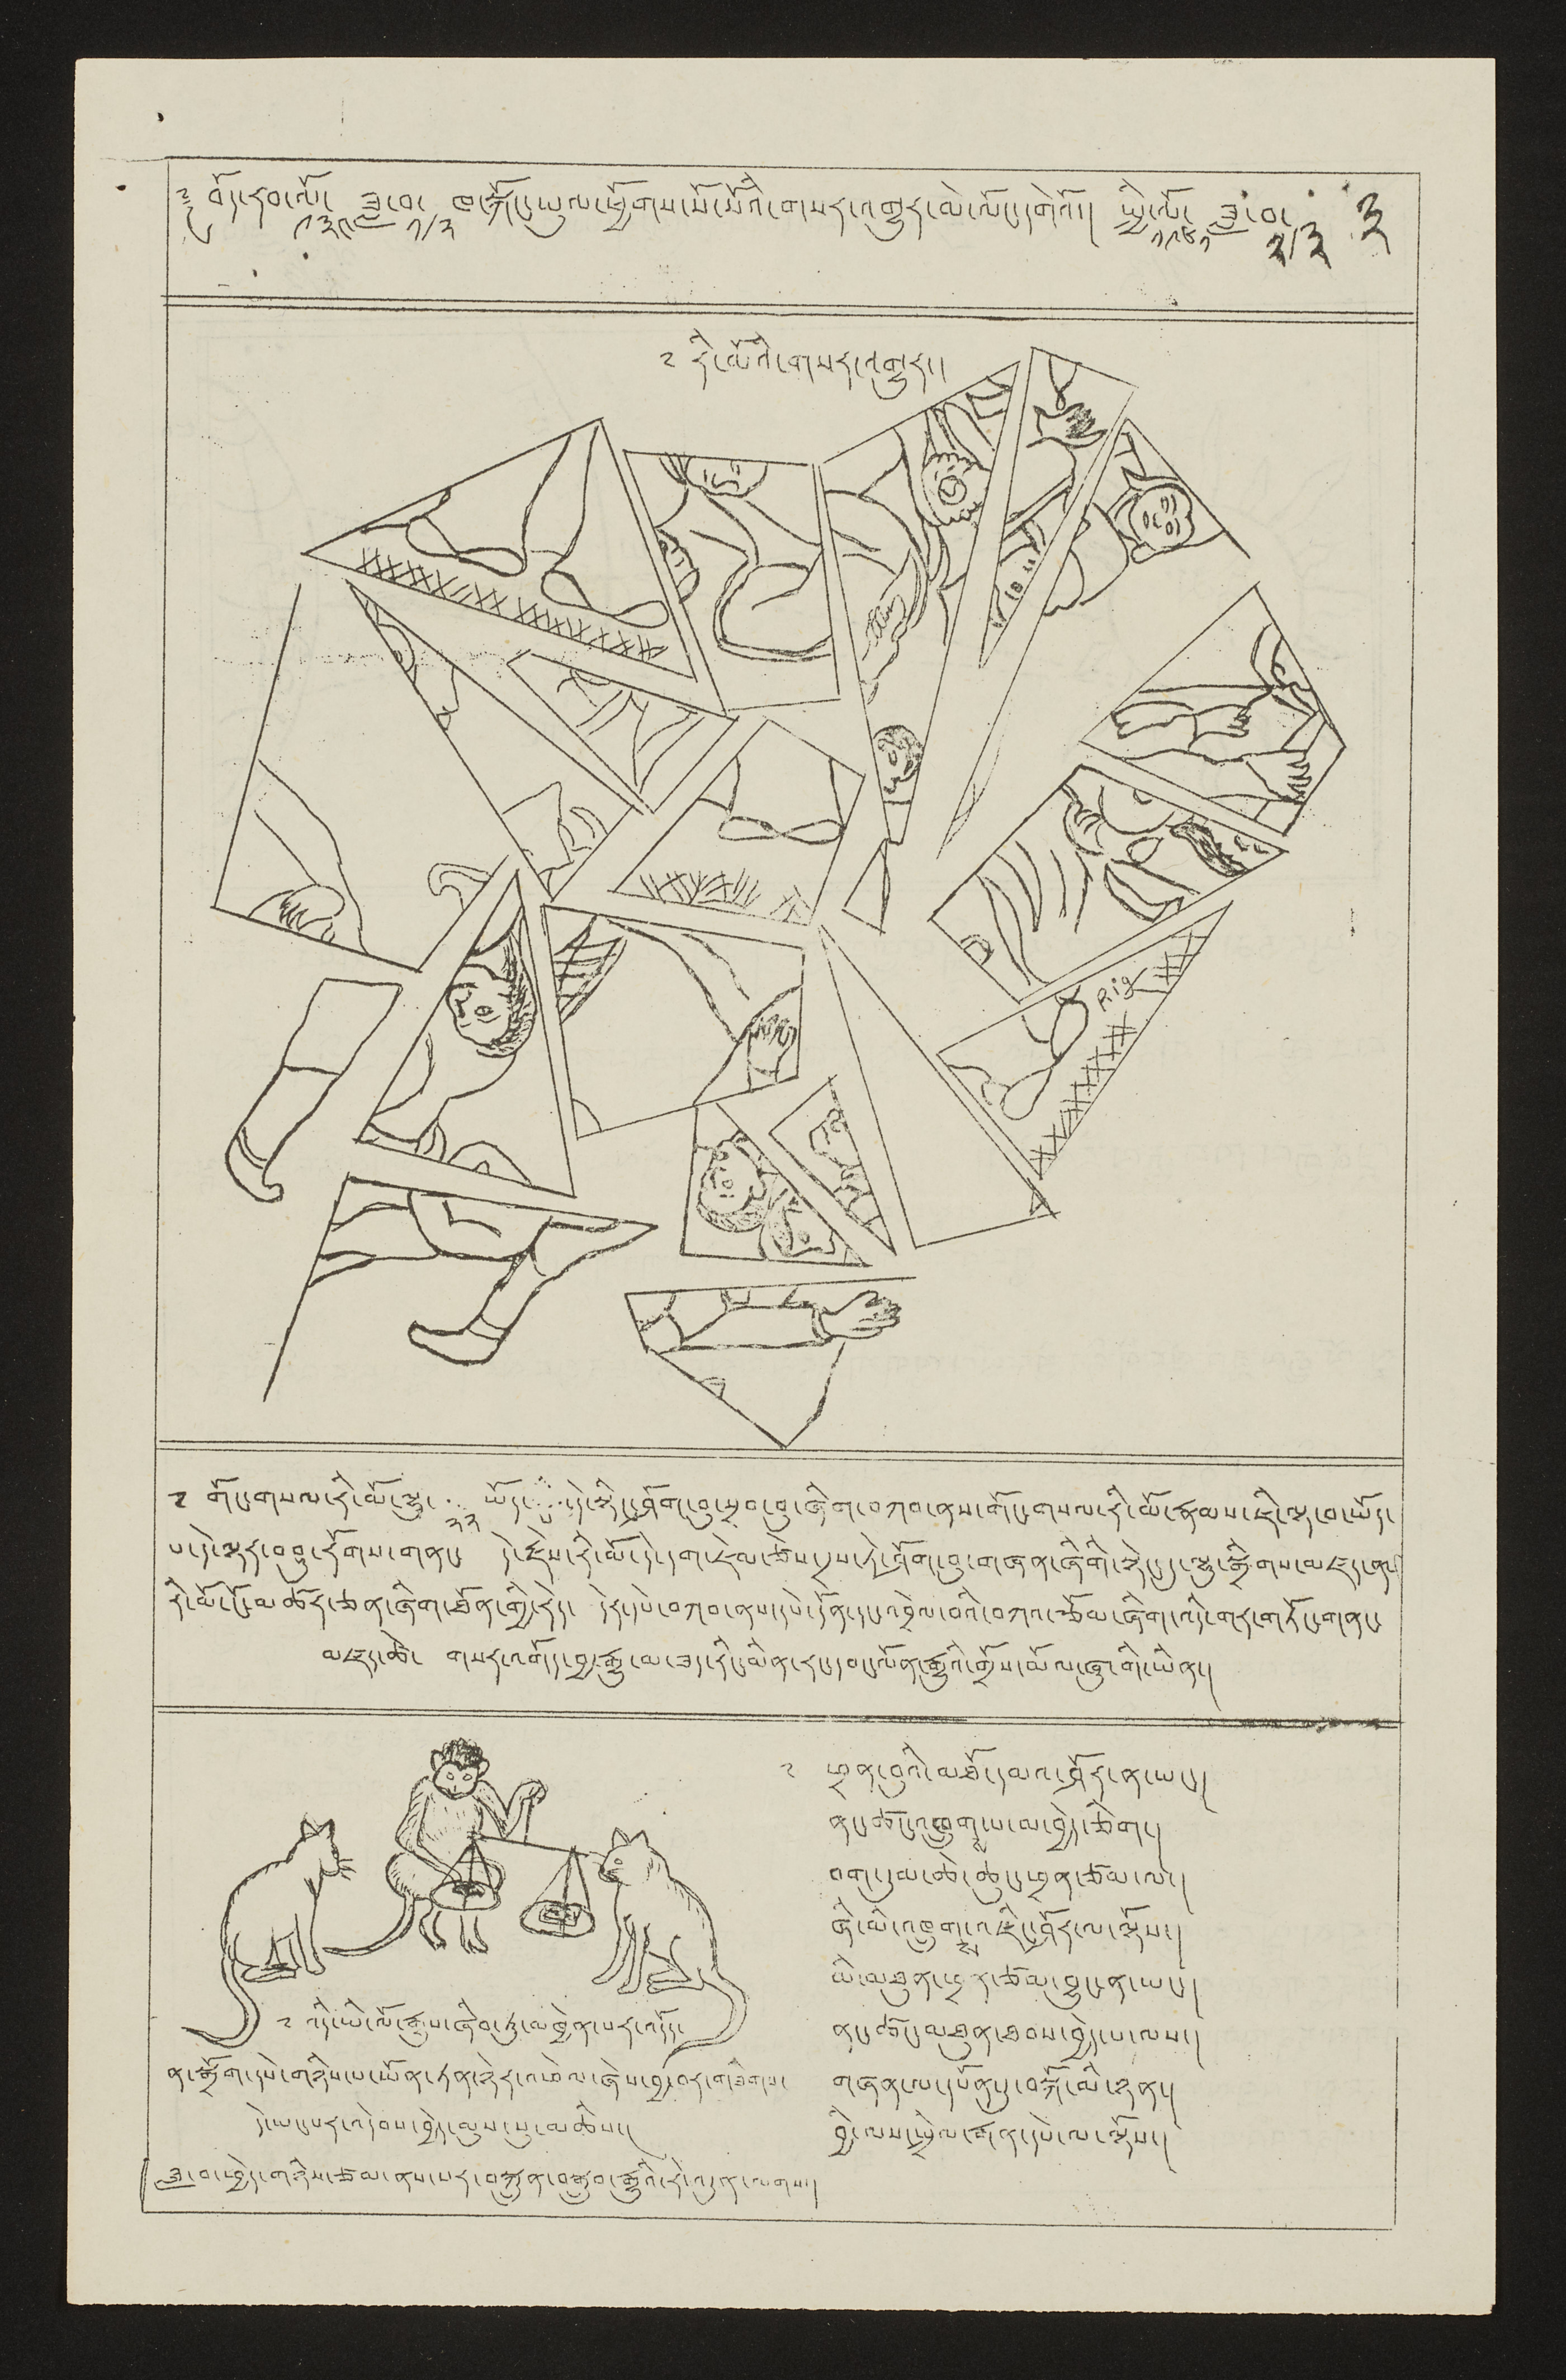༈ བོད་རབ་ལོ་
༩༣༤
ཟླ་བ་
༡/༢
ཁ་སྐོང་ཡུལ་ཕྱོགས་སོ་སོའི་གསར་འགྱུར་མེ་ལོང་གི་དགེའོ། སྤྱི་ལོ་
༡༩༦༡
ཟླ་བ་
༢/༣
༣
༈ རི་མོའི་གསར་འགྱུར།
༈ གོང་གསལ་རི་མོའི་ལྷུ་
༢༢
ཡོད་པ་དེ་སྙིང་ཤོག་བུ་སྲབ་བུ་ཞིག་བཀབ་ནས་གོང་གསལ་རི་མོ་རྣམས་ཇི་ལྟར་བ་ཡོད་
པ་དེ་ལྟར་བཤུ་རོགས་གནང་ དེ་རྗེས་རི་མོ་དེ་དག་ཇེལ་ཙེས་དྲས་ཏེ་ཤོག་བུ་གཞན་ཞིགི་སྟེང་དུ་ལྷུན་སྒྲིགས་མཛད་ན་
རི་མོ་ངོ་མཚར་ཅན་ཞིག་ཐོན་གྱི་རེད་ དེར་དཔེ་བཀབ་ནས་དཔེ་དོན་དང་འབྲེལ་བའི་བཀའ་རྩོམ་ཞིག་འདི་གར་གཏོང་གནང་
མཛད་ཚེ་ གསར་འགོད་བྱ་རྒྱུ་མ་ཟད་རིང་མིན་རང་དབང་ལོན་རྒྱུའི་གྲོས་མོལ་ཞུ་གི་ཡིན།
༈ འདི་ཡི་ལོ་རྒྱུས་ཞིབ་ཏུ་མཁྱེན་པར་འདོད་
ན་སྒྲོག་དཔེ་གཉིས་པ་ཡོན་ཏན་ཉེར་འཕེལ་ཞེས་བྱ་བར་གཟིགས་
དེ་ཡང་པར་འདེབས་བྱེད་མུས་སུ་མཆིས།
ཟླ་བ་ཕྱེད་གཉིས་ཙམ་ནས་པར་བསྐྲུན་བསྒྲུབ་རྒྱུའི་རེ་འདུན་ལགས།
༈ ཕྲན་བུའི་མཐོ་དམའ་ཤོར་ན་ཡང་།
ནང་ཚང་འཁྲུགས་པ་མ་བྱེད་ཅིག །
བག་དུམ་ཆེ་ཆུང་ཕྲན་ཙམ་ལ།
ཞི་མི་འཁྲུགས་འཛིང་ཤོར་ལ་ལྟོས།
མི་མཐུན་ཕྲན་ཙམ་བྱུང་ན་ཡང་།
ནང་ཚང་མཐུན་ཐབས་བྱེད་པ་ལས།
གཞན་ལ་དཔོན་དུ་བསྐོ་མི་ཉན།
བྱི་ལས་སྤྲེལ་རྒན་དཔེ་ལ་ལྟོས།
